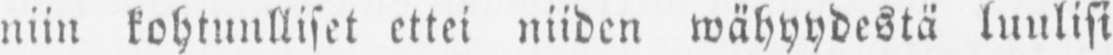niin kohtuulliset ettei niiden wähyydestä luulisi
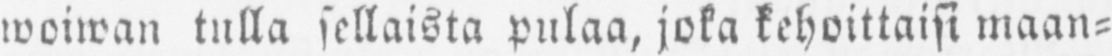woiwan tulla sellaista pulaa, joka kehoittaisi maan-
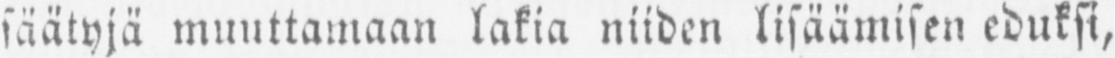säätyjä muuttamaan lakia niiden lisäämisen eduksi,
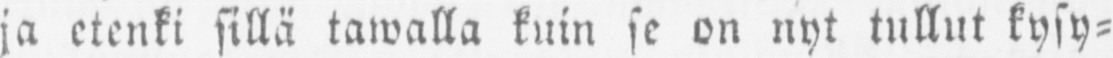ja etenki sillä tawalla kuin se on nyt tullut kysy-
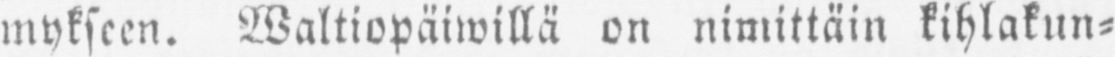mykseen. Waltiopäiwillä on nimittäin kihlakun-
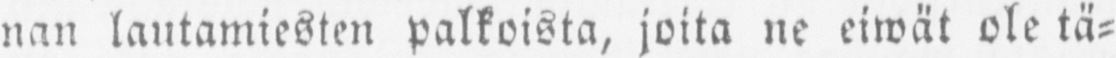nan lautamiesten palkoista, joita ne eiwät ole tä-
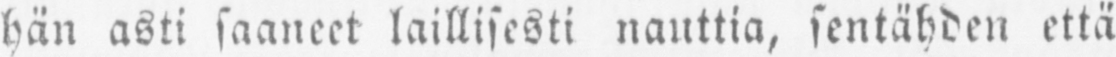hän asti saaneet laillisesti nauttia, sentähden että
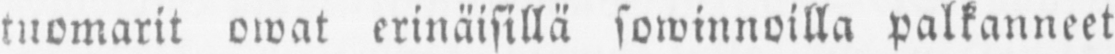tuomarit owat erinäisillä sowinnoilla palkanneet
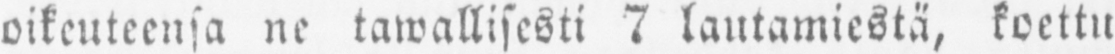oikeuteensa ne tawallisesti 7 lautamiestä, koettu
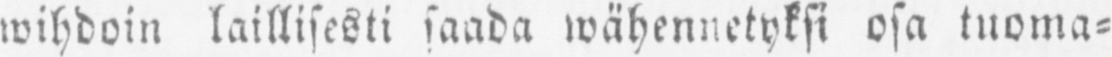wihdoin laillisesti saada wähennetyksi osa tuoma-
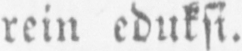rein eduksi.
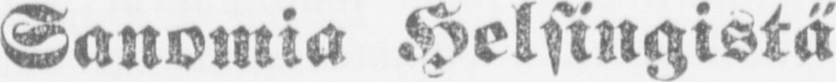Sanomia Helsingistä
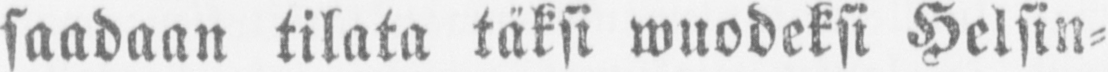saadaan tilata täksi wuodeksi Helsin-
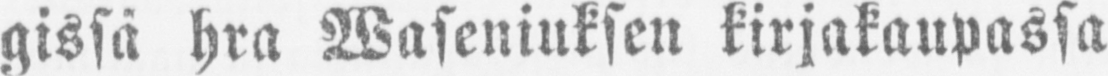gissä hra Waseniuksen kirjakaupassa
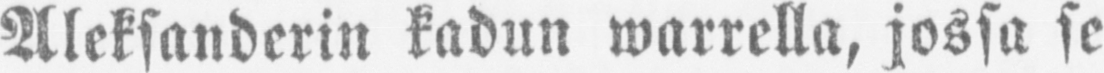Aleksanderin kadun warrella, jossa se
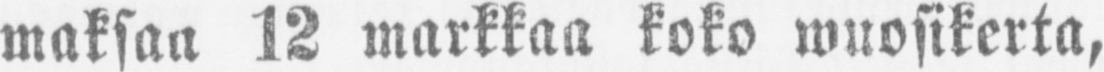maksaa 12 markkaa koko wuosikerta,
